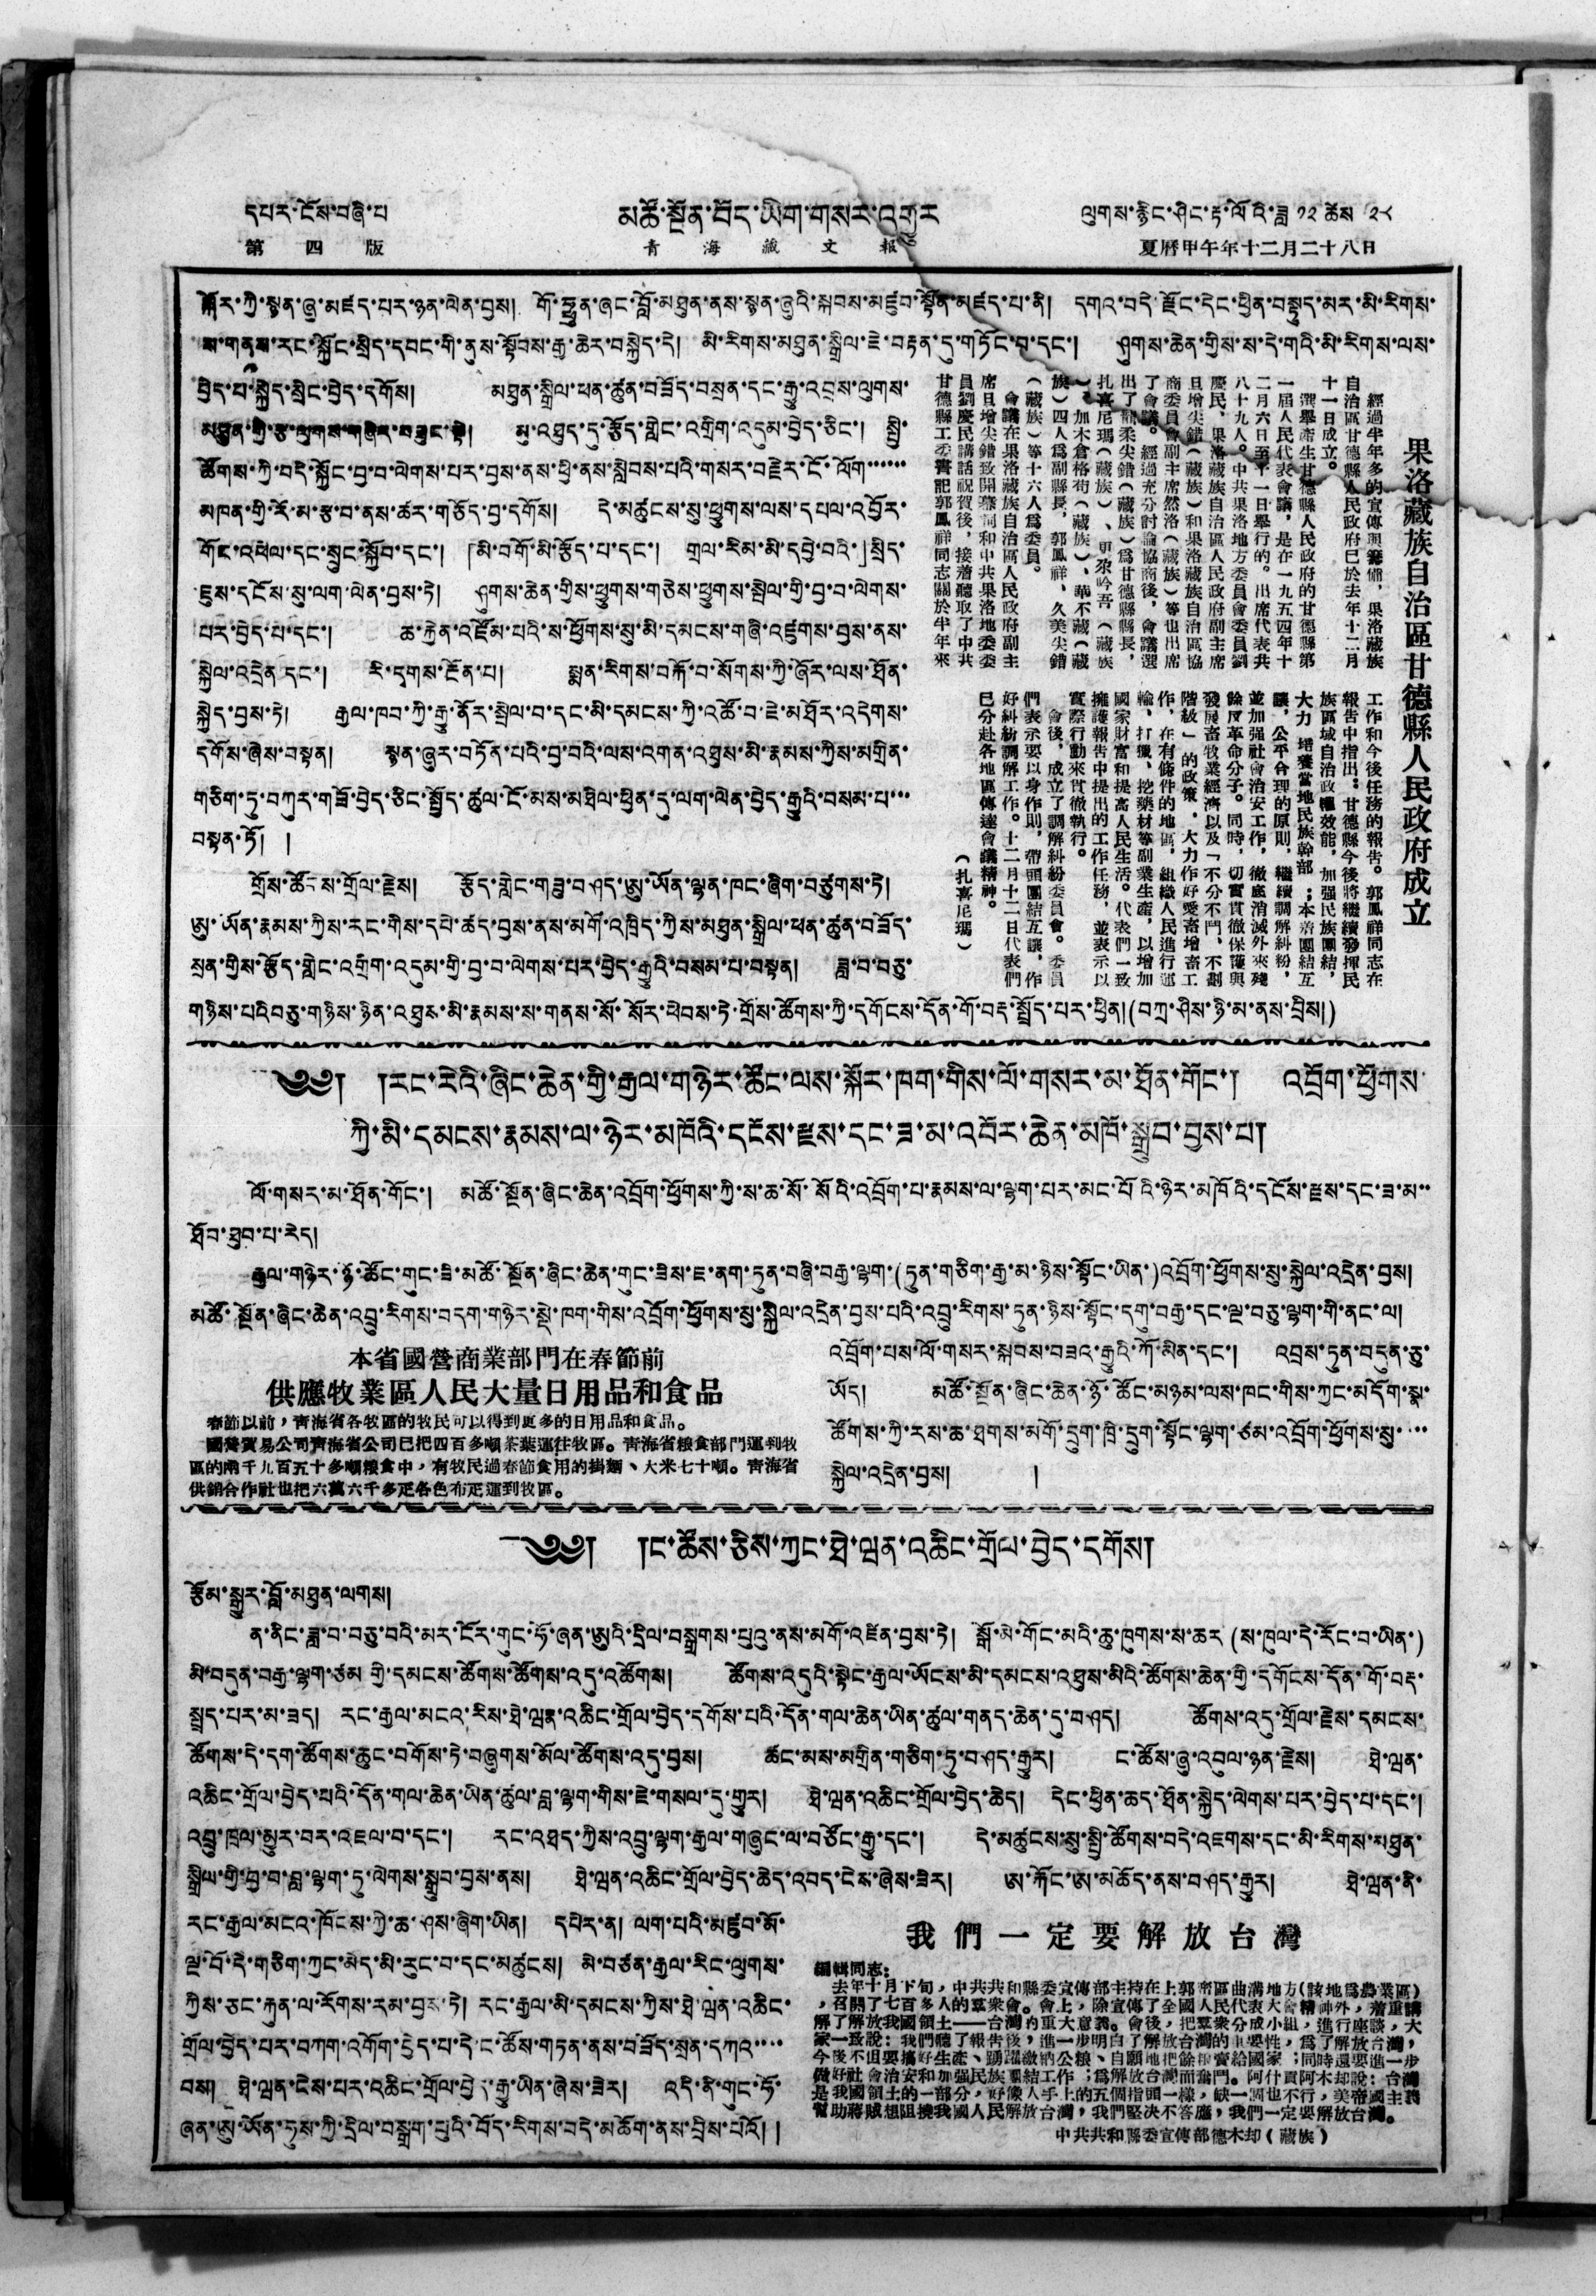དཔར་ངོས་བཞི་པ   མཚོ་སྔོན་བོད་ཡིག་གསར་འགྱུར  ལུགས་རྙིང་ཤིང་རྟ་ལོའི་ཟླ ༡༢ ཚེས ༢༨
第 四 版 青 海 藏 文 報 夏曆甲午年十二月二十八日
སྐོར་ཀྱི་སྙན་ཞུ་མཛད་པར་ཉན་ལེན་བྱས། གོ་ཧྥུན་ཞང་བློ་མཐུན་ནས་སྙན་ཞུའི་སྐབས་མཛུབ་སྟོན་མཛད་པ་ནི། དགའ་བདེ་རྫོང་དེང་ཕྱིན་བསྟུད་མར་མི་རིགས་
ས་གནས་རང་སྐྱོང་སྲིད་དབང་གི་ནུས་སྟོབས་རྒྱ་ཆེར་བསྐྱེད་དེ། མི་རིགས་མཐུན་སྒྲིལ་ཇེ་བརྟན་དུ་གཏོང་བ་དང་། ཤུགས་ཆེན་གྱིས་ས་དེ་གའི་མི་རིགས་ལས་
བྱེད་པ་སྐྱེད་སྲིང་བྱེད་དགོས། མཐུན་སྒྲིལ་ཕན་ཚུན་བཟོད་བསྲན་དང་རྒྱུ་འབྲས་ལུགས་
མཐུན་གྱི་རྩ་ལུགས་གཞིར་བཟུང་སྟེ། མུ་འཐུད་དུ་རྩོད་གླེང་འགྲིག་འདུམ་བྱེད་ཅིང་། སྤྱི་
ཚོགས་ཀྱི་བདེ་སྐྱོང་བྱ་བ་ལེགས་པར་བྱས་ནས་ཕྱི་ནས་སླེབས་པའི་གསར་བརྗེར་ངོ་ལོག་་་་་་་
མཁན་གྱི་རོ་མ་རྩ་བ་ནས་ཚར་གཅོད་བྱ་དགོས། དེ་མཚུངས་སུ་ཕྱུགས་ལས་དཔལ་འབྱོར་
གོང་འཕེལ་དང་སྲུང་སྐྱོབ་དང་། 「མི་བགོ་མི་རྩོད་པ་དང་། གྲལ་རིམ་མི་དབྱེ་བའི་」སྲིད་
ཇུས་དངོས་སུ་ལག་ལེན་བྱས་ཏེ། ཤུགས་ཆེན་གྱིས་ཕྱུགས་གཅེས་ཕྱུགས་སྤེལ་གྱི་བྱ་བ་ལེགས་
པར་བྱེད་པ་དང་། ཆ་རྐྱེན་འཛོམ་པའི་ས་ཕྱོགས་སུ་མི་དམངས་གཞི་འཛུགས་བྱས་ནས་
སྐྱེལ་འདྲེན དང་། རི་དྭགས་རྔོན་པ། སྨན་རིགས་བརྐོ་བ་སོགས་ཀྱི་ཞོར་ལས་ཐོན་
སྐྱེད་བྱས་ཏེ། རྒྱལ་ཁབ་ཀྱི་རྒྱུ་ནོར་སྤེལ་བ་དང་མི་དམངས་ཀྱི་འཚོ་བ་ཇེ་མཐོར་འདེགས་
དགོས་ཞེས་བསྟན། སྙན་ཞུར་བཏོན་པའི་བྱ་བའི་ལས་འགན་འཐུས་མི་རྣམས་ཀྱིས་མགྲིན་
གཅིག་ཏུ་བཀུར་གཟོ་བྱེད་ཅིང་སྤྱོད་ཚུལ་ངོ་མས་མཐིལ་ཕྱིན་དུ་ལག་ལེན་བྱེད་རྒྱུའི་བསམ་པ་་་
བསྟན་ཏོ། །
གྲོས་ཚོངས་གྲོལ་རྗེས། རྩོད་གླེང་གཟུ་བཤད་ཨུ་ཡོན་ལྷན་ཁང་ཞིག་བཙུགས་ཏེ།
ཨུ་ཡོན་རྣམས་ཀྱིས་རང་གིས་དཔེ་ཚད་བྱས་ནས་མགོ་འཁྲིད་ཀྱིས་མཐུན་སྒྲིལ་ཕན་ཚུན་བཟོད་
སྲན་གྱིས་རྩོད་གླེང་འགྲིག་འདུམ་གྱི་བྱ་བ་ལེགས་པར་བྱེད་རྒྱུའི་བསམ་པ་བསྟན། ཟླ་བ་བཅུ་
གཉིས་པའི བཅུ་གཉིས་ཉིན་འཐུས་མི་རྣམས་ས་གནས་སོ་སོར་ཕེབས་ཏེ་གྲོས་ཚོགས་ཀྱི་དགོངས་དོན་གོ་བརྡ་སྤྲོད་པར་ཕྱིན།
(བཀྲ་ཤིས་ཉི་མ་ནས་བྲིས།)
果洛藏族自治區甘德縣人民政府成立
經過半年多的宣傳與籌備，果洛藏族
自治區甘德縣人民政府已於去年十二月
十一日成立。
選舉產生甘德縣人民政府的甘德縣第
一屆人民代表會議，是在一九五四年十
二月六日至十一日舉行的。出席代表共
八十九人。中共果洛地方委員會委員劉
慶民，果洛藏族自治區人民政府副主席
旦增尖錯（藏族）和果洛藏族自治區協
商委員會副主席然洛（藏族）等也出席
了會議。經過充分討論協商後，會議選
出了龍柔尖錯（藏族）爲甘德縣縣長，
扎喜尼瑪（藏族）、更尕吟吾（藏族
）、加木倉格苟（藏族）、華不藏（藏
族）四人爲副縣長，郭鳳祥、久美尖錯
（藏族）等十六人爲委員。
會議在果洛藏族自治區人民政府副主
席旦增尖錯致開幕詞和中共果洛地委委
員劉慶民講話祝賀後，接着聽取了中共
甘德縣工委書記郭鳳祥同志關於半年來
工作和今後任務的報告。郭鳳祥同志在
報告中指出：甘德縣今後將繼續發揮民
族區域自治政權效能，加強民族團結，
大力 培養當地民族幹部 ；本着團結互
讓，公平合理的原則，繼續調解糾紛，
並加強社會治安工作，徹底消滅外來殘
餘反革命分子。同時，切實貫徹保護與
發展畜牧業經濟以及「不分不鬥、不劃
階級」 的政策 ，大力作好愛畜增畜工
作，在有條件的地區，組織人民進行運
輸、打獵、挖藥材等副業生產，以增加
國家財富和提高人民生活。代表們一致
擁護報告中提出的工作任務，並表示以
實際行動來貫徹執行。
會後，成立了調解糾紛委員會。委員
們表示要以身作則，帶頭團結互讓，作
好糾紛調解工作。十二月十二日代表們
已分赴各地區傳達會議精神。
（扎喜尼瑪）
༄༅། །རང་རེའི་ཞིང་ཆེན་གྱི་རྒྱལ་གཉེར་ཚོང་ལས་སྐོར་ཁག་གིས་ལོ་གསར་མ་ཐོན་གོང་། འབྲོག་ཕྱོགས་
ཀྱི་མི་དམངས་རྣམས་ལ་ཉེར་མཁོའི་དངོས་རྫས་དང་ཟ་མ་འབོར་ཆེན་མཁོ་སྒྲུབ་བྱས་པ།
ལོ་གསར་མ་ཐོན་གོང་། མཚོ་སྔོན་ཞིང་ཆེན་འབྲོག་ཕྱོགས་ཀྱི་ས་ཆ་སོ་སོའི་འབྲོག་པ་རྣམས་ལ་ལྷག་པར་མང་པོའི་ཉེར་མཁོའི་དངོས་རྫས་དང་ཟ་མ་་
ཐོབ་ཐུབ་པ་རེད།
རྒྱལ་གཉེར་ཉོ་ཚོང་གུང་ཟི་མཚོ་སྔོན་ཞིང་ཆེན་གུང་ཟིས་ཇ་ནག་ཏུན་བཞི་བརྒྱ་ལྷག་(ཏུན་གཅིག་རྒྱ་མ་ཉིས་སྟོང་ཡིན་)འབྲོག་ཕྱོགས་སུ་སྐྱེལ་འདྲེན་བྱས།
མཚོ་སྔོན་ཞིང་ཆེན་འབྲུ་རིགས་བདག་གཉེར་སྡེ་ཁག་གིས་འབྲོག་ཕྱོགས་སུ་སྐྱིལ་འདྲེན་བྱས་པའི་འབྲུ་རིགས་ཏུན་ཉིས་སྟོང་དགུ་བརྒྱ་དང་ལྔ་བཅུ་ལྷག་གི་ནང་ལ།
འབྲོག་པས་ལོ་གསར་སྐབས་བཟའ་རྒྱུའི་ཀོ་མིན་དང་། འབྲས་ཏུན་བདུན་ཅུ་
ཡོད། མཚོ་སྔོན་ཞིང་ཆེན་ཉོ་ཚོང་མཉམ་ལས་ཁང་གིས་ཀྱང་མདོག་སྣ་
ཚོགས་ཀྱི་རས་ཆ་ཐུགས་མགོ་དྲུག་ཁྲི་དྲུག་སྟོང་ལྷག་ཙམ་འབྲོག་ཕྱོགས་སུ་་་་
སྐྱེལ་འདྲེན་བྱས། །
本省國營商業部門在春節前
供應牧業區人民大量日用品和食品
春節以前，靑海省各牧區的牧民可以得到更多的日用品和食品。
國營貿易公司靑海省公司已把四百多噸茶葉運往牧區。靑海省粮食部門運到牧
區的兩千九百五十多噸粮食中，有牧民過春節食用的掛麵、大米七十噸。靑海省
供銷合作社也把六萬六千多疋各色布疋運到牧區。
༄༅། །ང་ཚོས་ཅིས་ཀྱང་ཐེ་ཝན་འཆིང་གྲོལ་བྱེད་དགོས།
རྩོམ་སྒྱུར་བློ་མཐུན་ལགས།
ན་ནིང་ཟླ་བ་བཅུ་བའི་མར་ངོར་གུང་ཧོ་ཞན་ཨུའི་དྲིལ་བསྒྲགས་པུའུ་ནས་མགོ་འཛིན་བྱས་ཏེ། སྒོ་མེ་གོང་མའི་ཆུ་ཁུགས་ས་ཆར (ས་ཁུལ་དེ་རོང་བ་ཡིན་)
མི་བདུན་བརྒྱ་ལྷག་ཙམ གྱི་དམངས་ཚོགས་ཚོགས་འདུ་འཚོགས། ཚོགས་འདུའི་སྟེང་རྒྱལ་ཡོངས་མི་དམངས་འཐུས་མིའི་ཚོགས་ཆེན་གྱི་དགོངས་དོན་གོ་བརྡ་
སྤྲད་པར་མ་ཟད། རང་རྒྱལ་མངའ་རིས་ཐེ་ཝན་འཆིང་གྲོལ་བྱེད་དགོས་པའི་དོན་གལ་ཆེན་ཡིན་ཚུལ་གནད་ཆེན་དུ་བཤད། ཚོགས་འདུ་གྲོལ་རྗེས་དམངས་
ཚོགས་དེ་དག་ཚོགས་ཆུང་བགོས་ཏེ་བཞུགས་མོལ་ཚོགས་འདུ་བྱས། ཚང་མས་མགྲིན་གཅིག་ཏུ་བཤད་རྒྱུར། ང་ཚོས་ཞུ་འབུལ་ཉན་རྗེས། ཐེ་ཝན་
འཆིང་གྲོལ་བྱེད་པའི་དོན་གལ་ཆེན་ཡིན་ཚུལ་བླ་ལྷག་གིས་ཇེ་གསལ་དུ་གྱུར། ཐེ་ཝན་འཆིང་གྲོལ་བྱེད་ཆེད། དེང་ཕྱིན་ཆད་ཐོན་སྐྱེད་ལེགས་པར་བྱེད་པ་དང་།
འབྲུ་ཁྲལ་མྱུར་བར་འཇལ་བ་དང་། རང་འཐད་ཀྱིས་འབྲུ་ལྷག་རྒྱལ་གཞུང་ལ་བཙོང་རྒྱུ་དང་། དེ་མཚུངས་སུ་སྤྱི་ཚོགས་བདེ་འཇགས་དང་མི་རིགས་མཐུན་
སྒྲིལ་གྱི་བྱ་བ་བླ་ལྷག་ཏུ་ལེགས་སྒྲུབ་བྱས་ནས། ཐེ་ཝན་འཆིང་གྲོལ་བྱེད་ཆེད་འབད་ངེས་ཞེས་ཟེར། ཨ་རྐོང་ཨོ་མཆོད་ནས་བཤད་རྒྱུར། ཐེ་ཝན་ནི་
རང་རྒྱལ་མངའ་ཁོངས་ཀྱི་ཆ་ཤས་ཞིག་ཡིན། དཔེར་ན། ལག་པའི་མཛུབ་མོ་
ལྔ་བོ་དེ་གཅིག་ཀྱང་མེད་མི་རུང་བ་དང་མཚུངས། མི་བཙན་རྒྱལ་རིང་ལུགས་
ཀྱིས་ཅང་རྐུན་ལ་རོགས་རམ་བྱས་ཏེ། རང་རྒྱལ་མི་དམངས་ཀྱིས་ཐེ་ཝན་འཆིང་
གྲོལ་བྱེད་པར་བཀག་འགོག་བྱེད་པ་དེ་ང་ཚོས་གཏན་ནས་བཟོད་སྲན་དཀའ་་་་
བས། ཐེ་ཝན་ངེས་པར་འཆིང་གྲོལ་བྱེད་རྒྱུ་ཡིན་ཞེས་ཟེར། འདི་ནི་གུང་ཧོ་
ཞན་ཨུ་ཡོན་ཧུས་ཀྱི་དྲིལ་བསྒྲག་པུའི་བོད་རིགས་བདེ་མཆོག་ནས་བྲིས་པའོ། །
我 們 一 定 要 解 放 台 灣
編輯同志：
去年十月下旬，中共共和縣爲宣傳部主持在上郭密區曲溝地方（該地爲農業區）
，召開了七百多人的羣衆會。會上，除宣傳了全國人民代表大會精神外，着重講
解了解放我國領土——台灣的重大意義。會後，把羣衆分成小組，進行座談，大
家一致說：我們聽了報告後，進一步明白了解放台灣的重要性，爲了解放台灣，
今後不但要搞好生產、踊躍繳納公粮、自願地把餘粮賣給國家；同時還要進一步
做好社會治安和加強民族團結工作；爲解放台灣而奮鬥。阿什貢阿木却說：台灣
是我國領土的一部分，好像人手上的五個指頭一樣，缺一個也不行，美帝國主義
幫助蔣賊想阻撓我國人民解放台灣，我們堅決不答應，我們一定要解放台灣。
中共共和縣委宣傳部德木却（藏族）
